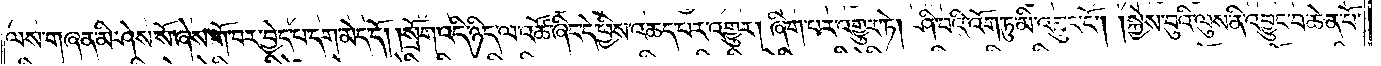ལས་གཞན་མི་ཤེས་སོ་ཞེས་གོ་བར་བྱེད་པ་དག་མེད་དོ། །སྲོག་འདི་ཉིད་ལ་འཚོ་ཞིང་དེ་ཕྱིས་འཆད་པར་འགྱུར། ཞིག་པར་འགྱུར་ཏེ། ཤི་བའི་འོག་ཏུ་མི་འབྱུང་ངོ༌། །སྐྱེས་བུའི་ལུས་ནི་འབྱུང་བ་ཆེན་པོ་
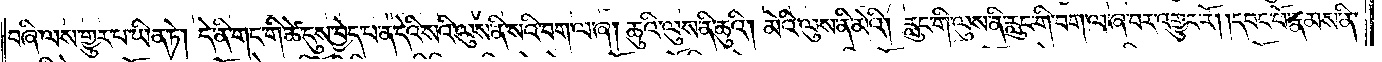བཞི་ལས་གྱུར་པ་ཡིན་ཏེ། དེ་ནི་གང་གི་ཚེ་དུས་བྱེད་པ་ན་དེའི་སའི་ལུས་ནི་སའི་བག་ལ་ཞ། ཆུའི་ལུས་ནི་ཆུའི། མེའི་ལུས་ནི་མེའི། རླུང་གི་ལུས་ནི་རླུང་གི་བག་ལ་ཞ་བར་འགྱུར་རོ། །དབང་པོ་རྣམས་ནི་
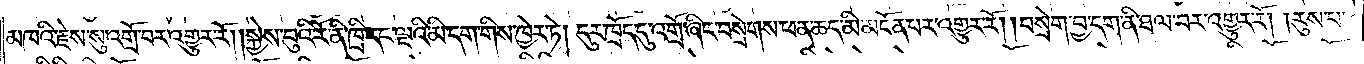མཁའི་རྗེས་སུ་འགྲོ་བར་འགྱུར་རོ། །སྐྱེས་བུའི་རོ་ནི་ཁྲི་དང་ལྔའི་མི་དག་གིས་ཁྱེར་ཏེ། དུར་ཁྲོད་དུ་འགྲོ་ཞིང་བསྲེགས་ཕན་ཆད་མི་མངོན་པར་འགྱུར་རོ། །བསྲེག་བྱ་དག་ནི་ཐལ་བར་འགྱུར་རོ། །རུས་པ་
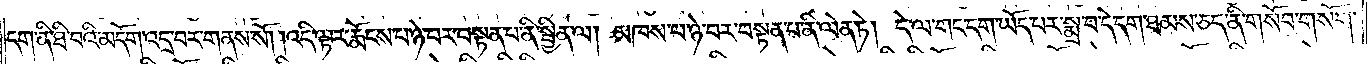དག་ནི་ཐི་བའི་མདོག་འདྲ་བར་གནས་སོ། །འདི་ལྟར་རྨོངས་པ་ཉེ་བར་བསྟན་པ་ནི་སྦྱིན་ལ། མཁས་པ་ཉེ་བར་བསྟན་པ་ནི་ལེན་ཏེ། དེ་ལ་གང་དག་ཡོད་པར་སྨྲ་བ་དེ་དག་ཐམས་ཅད་ནི་གསོབ་གསོག་
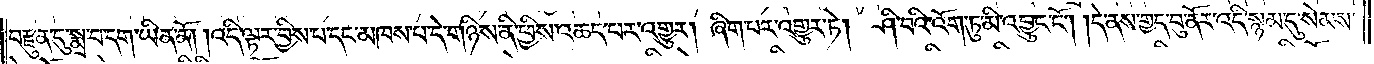བརྫུན་དུ་སྨྲ་བ་དག་ཡིན་ནོ། །འདི་ལྟར་བྱིས་པ་དང་མཁས་པ་དེ་གཉིས་ནི་ཕྱིས་འཆད་པར་འགྱུར། ཞིག་པར་འགྱུར་ཏེ། ཤི་བའི་འོག་ཏུ་མི་འབྱུང་ངོ༌། །དེ་ནས་གྱད་བུ་ནོར་འདི་སྙམ་དུ་སེམས་
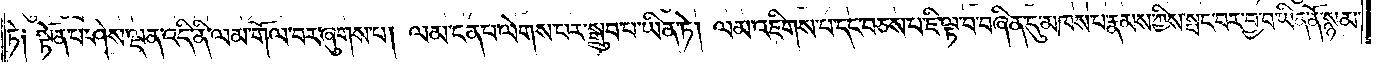ཏེ༑ སྟོན་པ་ཤེས་ལྡན་འདི་ནི་ལམ་གོལ་བར་ཞུགས་པ། ལམ་ངན་པ་ལེགས་པར་སྒྲུབ་པ་ཡིན་ཏེ། ལམ་འཇིགས་པ་དང་བཅས་པ་ཇི་ལྟ་བ་བཞིན་དུ་མཁས་པ་རྣམས་ཀྱིས་སྤང་བར་བྱ་བ་ཡིན་ནོ་སྙམ་
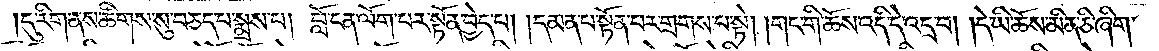དུ་རིག་ནས་ཚིགས་སུ་བཅད་པ་སྨྲས་པ། བློ་ངན་ལོག་པར་སྟོན་བྱེད་པ། །དམན་པ་སྟོན་པར་གྲགས་པ་སྟེ། །གང་གི་ཆོས་འདི་དེ་འདྲ་བ། །དེ་ཡི་ཆོས་མིན་ཅི་ཞིག་
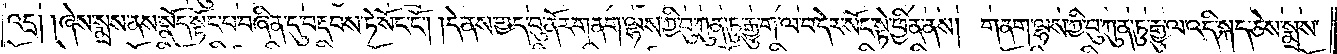འདྲ། །ཞེས་སྨྲས་ནས་སྣོད་སྟོང་པ་བཞིན་དུ་བརྡབས་ཏེ་སོང་ངོ༌། །དེ་ནས་གྱད་བུ་ནོར་གནག་ལྷས་ཀྱི་བུ་ཀུན་ཏུ་རྒྱུ་ག་ལ་བ་དེར་སོང་སྟེ་ཕྱིན་ནས། གནག་ལྷས་ཀྱི་བུ་ཀུན་ཏུ་རྒྱུ་ལ་འདི་སྐད་ཅེས་སྨྲས་
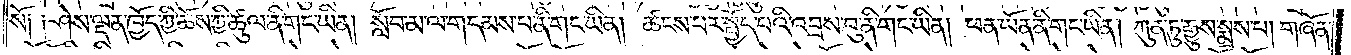སོ༑ ༑ཤེས་ལྡན་ཁྱོད་ཀྱི་ཆོས་ཀྱི་ཚུལ་ནི་གང་ཡིན། སློབ་མ་ལ་གདམས་པ་ནི་གང་ཡིན། ཚངས་པར་སྤྱོད་པའི་འབྲས་བུ་ནི་གང་ཡིན། ཕན་ཡོན་ནི་གང་ཡིན། ཀུན་ཏུ་རྒྱུས་སྨྲས་པ། གཞོན་
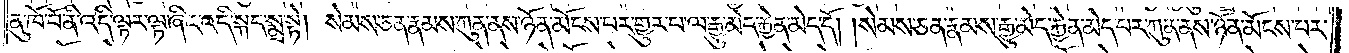ནུ་ཁོ་བོ་ནི་འདི་ལྟར་ལྟ་ཞིང་འདི་སྐད་སྨྲ་སྟེ། སེམས་ཅན་རྣམས་ཀུན་ནས་ཉོན་མོངས་པར་གྱུར་པ་ལ་རྒྱུ་མེད་རྐྱེན་མེད་དོ། །སེམས་ཅན་རྣམས་རྒྱུ་མེད་རྐྱེན་མེད་པར་ཀུན་ནས་ཉོན་མོངས་པར་
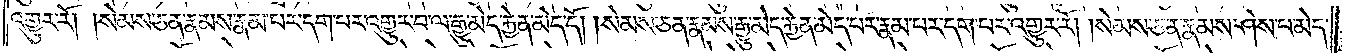འགྱུར་རོ། །སེམས་ཅན་རྣམས་རྣམ་པར་དག་པར་འགྱུར་བ་ལ་རྒྱུ་མེད་རྐྱེན་མེད་དོ། །སེམས་ཅན་རྣམས་རྒྱུ་མེད་རྐྱེན་མེད་པར་རྣམ་པར་དག་པར་འགྱུར་རོ། །སེམས་ཅན་རྣམས་ཤེས་པ་མེད་
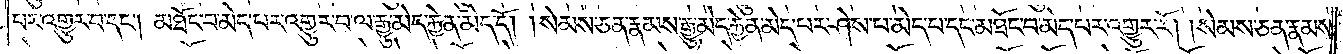པར་འགྱུར་བ་དང༌། མཐོང་བ་མེད་པར་འགྱུར་བ་ལ་རྒྱུ་མེད་རྐྱེན་མེད་དོ། །སེམས་ཅན་རྣམས་རྒྱུ་མེད་རྐྱེན་མེད་པར་ཤེས་པ་མེད་པ་དང་མཐོང་བ་མེད་པར་འགྱུར་རོ། །སེམས་ཅན་རྣམས་
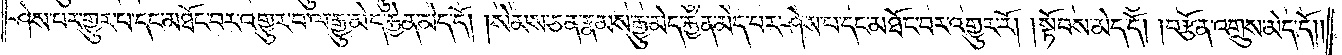ཤེས་པར་གྱུར་པ་དང་མཐོང་བར་འགྱུར་བ་ལ་རྒྱུ་མེད་རྐྱེན་མེད་དོ། །སེམས་ཅན་རྣམས་རྒྱུ་མེད་རྐྱེན་མེད་པར་ཤེས་པ་དང་མཐོང་བར་འགྱུར་རོ། །སྟོབས་མེད་དོ། །བརྩོན་འགྲུས་མེད་དོ༎
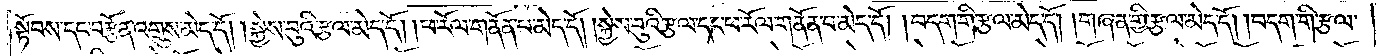སྟོབས་དང་བརྩོན་འགྲུས་མེད་དོ། །སྐྱེས་བུའི་རྩལ་མེད་དོ། །ཕ་རོལ་གནོན་པ་མེད་དོ། །སྐྱེས་བུའི་རྩལ་དང་ཕ་རོལ་གནོན་པ་མེད་དོ། །བདག་གི་རྩལ་མེད་དོ། །གཞན་གྱི་རྩལ་མེད་དོ། །བདག་གི་རྩལ་
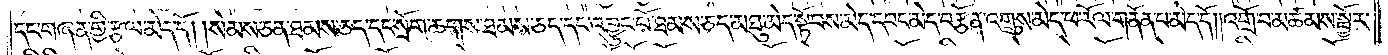དང་གཞན་གྱི་རྩལ་མེད་དོ། །སེམས་ཅན་ཐམས་ཅད་དང་སྲོག་ཆགས་ཐམས་ཅད་དང་འབྱུང་པོ་ཐམས་ཅད་མཐུ་མེད་སྟོབས་མེད་དབང་མེད་བརྩོན་འགྲུས་མེད་ཕ་རོལ་གནོན་པ་མེད་དོ། །འགྲོ་བ་མཚམས་སྦྱོར་
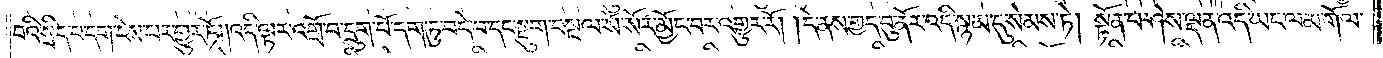བའི་སྲིད་པ་དག་ངེས་པར་གྱུར་ཏོ། །འདི་ལྟར་འགྲོ་བ་དྲུག་པོ་དག་ཏུ་བདེ་བ་དང་སྡུག་བསྔལ་སོ་སོར་མྱོང་བར་འགྱུར་རོ། །དེ་ནས་གྱད་བུ་ནོར་འདི་སྙམ་དུ་སེམས་ཏེ། སྟོན་པ་ཤེས་ལྡན་འདི་ཡང་ལམ་གོལ་
